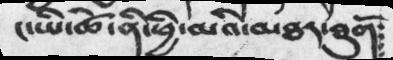ང་ཡི་ཚེ་ནི་ཕྱི་མའི་མཐར་ཐུགོ༴
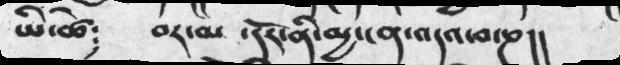ཡི་ཚེ༴     བར་མ   ་དོར་ནི་མྱ་ངན་འདའ་བ་ཎ།།
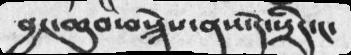བྱང་ཆུབ་བསྙེས་ནས་དེ་སྲིད་ང་
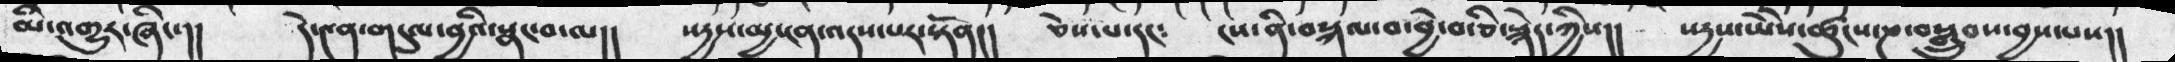མི་འགྱུར་ཞིང་།།  དེ་༤ན་གདུལ་བྱའི་སྣང་བ་ལ།།  སདྱས་མྱ་ངན་འདས་པར་སྟོན།།  ཅེས་པ་དང༴  ངས་ནི་བསྐལ་བ་བྱེ་བ་ཅི་སྙེད་ཀྱིས།།  སདྱས་ཡཻས་ཚུངས་ཎ་བསྒྲུབས་བྱས་པས།།
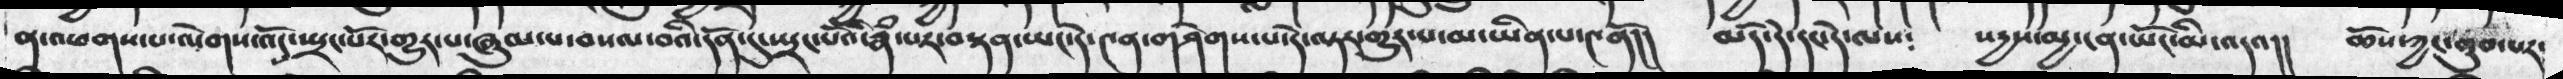ན་འཕགས་པ་ལེགས་འོད་ཡྲང་པོར་གྱུར་པ་ཞུམ་པ་བསལ་བའི་དོན་དུ་ཡྲང་པོའི་རྣཾ་པར་བསྟན་ཡང་དེ་༤ན་གཤེགས་པ་དེ་འཏར་གྱུར་པ་མ་ཡིན་པ་༤ནོ།།  མདོ་དེ་དང་དེ་ལས༴   སརྱས་མྱ་ངན་ཡོང་མི་འདའ།།   ཆོས་ཀྱང་ནུབ་པར་
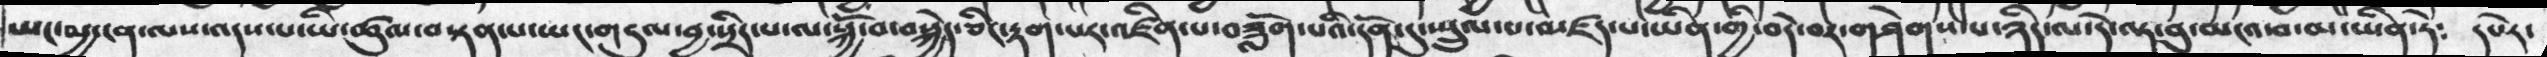ཡང་མྱ་ངན་ལས་འདས་པ་ཡི་ཚུལ་བསྟན་པ་ཡང་གདུལ་བྱ་སྲིད་པ་ལ་སྐྱོ་བ་བསྐྱེད་ཅིང་རྟག་པར་འཛིནཔ་བཟློག་པའི་དོན་དུ་སྤྲུལ་པ་མཛད་པ་ཡིན་གྱི་བདེ་བར་གཤེགས་པ་ཉིད་ལ་དེ་ལྟ་བུ་མངའ་བ་མ་ཡིན་ཏེ༴  དཔེར་
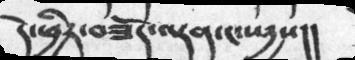དེ་ཕྱིར་བཟོད་ལྡན་ང་སདྱས།།
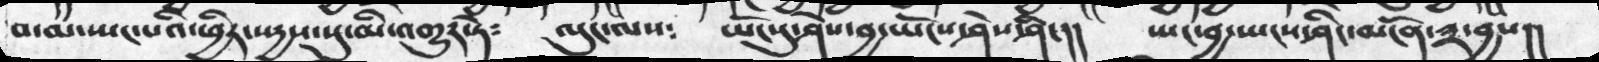བ་མ་སྤང་པའི་ཕྱིར་སདྱས་སུ་མི་འགྱུར་ཏེ༴   ལུང་ལས༴   ཡོངསུ་ཤེས་བྱ་ཡོངས་ཤེས་ཤིང།།   སྤང་བྱ་སྤངས་ཤིང་མངོན་༣་བྱས།།
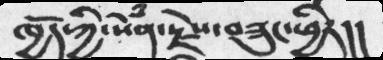ཁྱོད་ཀྱི་སེཾན་རྗེས་བཟུང་ཕྱིར།།
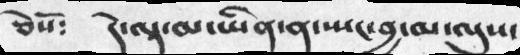ཅེས་སོ༴       དེ་ལྟ་མ་ཡིན་ན་སྤང་བྱ་མ་ལུས་
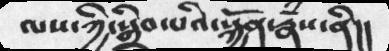ལས་ཀྱི་སྒྲིབ་པའི་སྐྱོན་རྣཾས་ནི།།
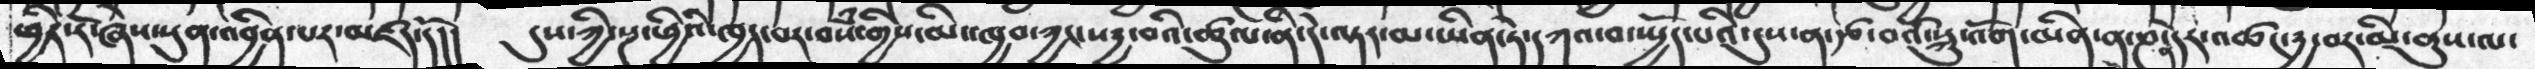ཕྱིར་རོ་ཞེས་སུན་འབྱིན་པར་མཛད་དོ།།   དུས་ཀྱི་སྔ་ཕྱིའི་ཁྱད་པར་བསཾ་གྱིས་མི་ཁྱབ་ཀྱང་སརྱ་བའི་ཚུལ་ནི་དེ་འཏར་མ་ཡིན་ཏེ་དཀའ་བ་ཡྱོད་པའི་དུས་༡་རྩ་བའི་སྐུ་འོག་མིན་ན་ཎ་ན་དེར་འཚང་རྱ་བར་མི་ནུས་ལ་
